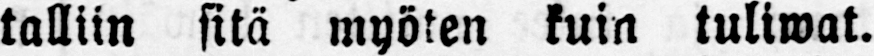talliin sitä myöten kuin tuliwat.
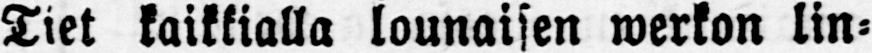Tiet kaikkialla lounaisen werkon lin-
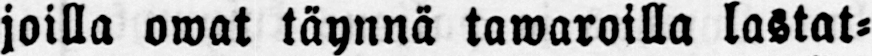joilla owat täynnä tawaroilla lastat-
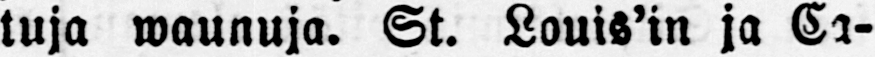tuja waunuja. St. Louis'in ja Ca-
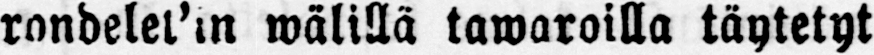rondelet'in wälillä tawaroilla täytetyt
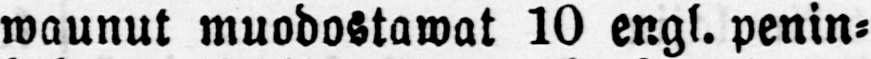waunut muodostawat 10 engl. penin-
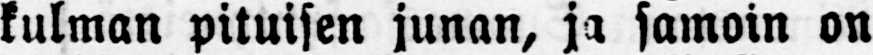kulman pituisen junan, ja samoin on
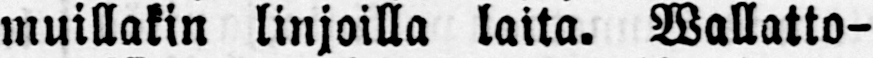muillakin linjoilla laita. Wallatto-
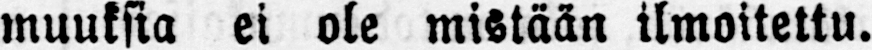muuksia ei ole mistään ilmoitettu.
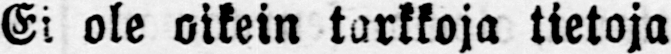Ei ole oikein tarkkoja tietoja
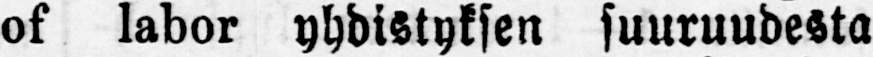of labor yhdistyksen suuruudesta
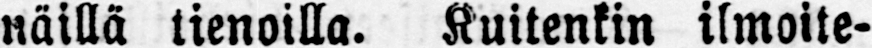näillä tienoilla. Kuitenkin ilmoite-
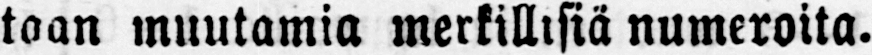taan muutamia merkillisiä numeroita.
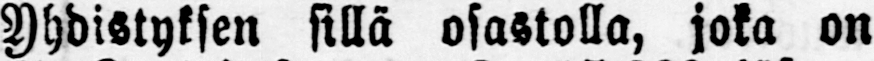Yhdistyksen sillä osastolla, joka on
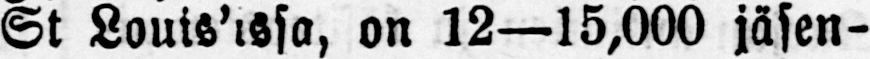St Louisissa, on 12—15,000 jäsen-
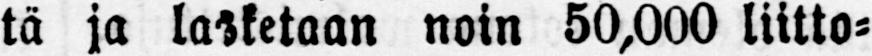tä ja lasketaan noin 50,000 liitto-
